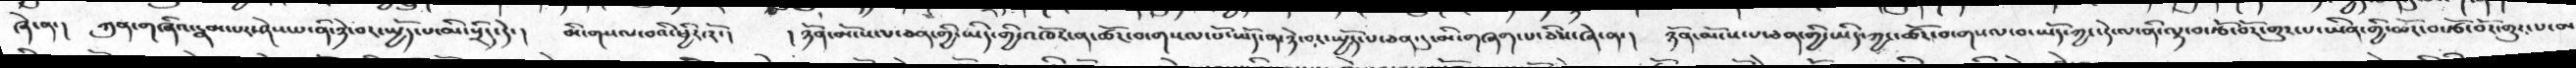ཞེ་ན་།  ཀུན་གཞིའ་རྣམ་པར་ཤེས་པ་ནི་ཉེ་བར་སྤྱོད་པ་མི་སྲིད་དེ་།  མི་གསལ་བའི་ཕྱིར་རོ་།   །ཉོན་མོངས་པ་ཅན་གྱི་ཡིད་གྱི་འཁོར་ན་ཚོར་བ་གསལ་པོ་ཡོད་ན་ཉེ་བར་སྤྱོད་པ་ཅན་དུ་མི་གཞག་པ་ཅིས་ཞེ་ན་།  ཉོན་མོངས་པ་ཅན་གྱི་ཡིད་ཀྱང་ཚོར་བ་གསལ་བ་ཡོད་ཀྱང་དེ་ལ་ལྟ་བ་རྩོ་བོར་གྱུར་པ་ཡིན་གྱི་ཚོར་བ་རྩོ་བོར་གྱུར་པ་མ
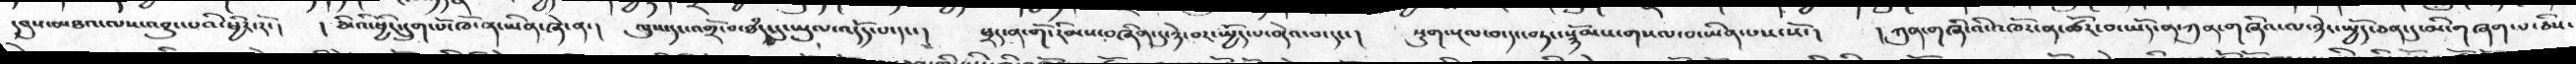དབུས་མཐའ་ལས་འབྱུང་པའི་ཕྱིར་རོ་།   །ཅི་འི་ཕྱིར་དྲུག་པོ་ཁོ་ན་ཡིན་ཞེ་ན་།   ལུས་དང་འགྲོ་བ་ཐཾད་དུ་ཡུལ་འདོད་པ་དང་།  ཕྲད་ན་གོ་རིམས་བཞིན་དུ་ཉེ་བར་སྤྱོད་པ་བདེའ་པ་དང་།   སྡུག་སྔལ་བ་དང་བཏང་སྙོམས་གསལ་བ་ཡིན་པས་སོ་།   །ཀུན་གཞི་འི་འཁོར་ན་ཚོར་བ་ཡོད་ན་ཀུན་གཞིའ་ལ་ཉེར་སྤྱོད་ཅན་དུ་མི་གཞག་པ་ཅིས་
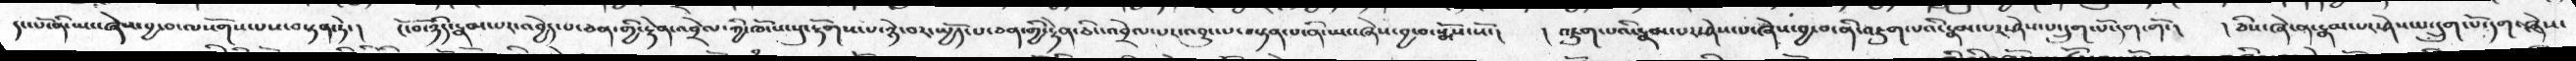དང་པོ་ནི་ཡང་ཞེས་བྱ་བ་ལསོགས་པས་བསྟན་ཏེ་།   ངོ་བོ་ཉིད་རྣམ་པར་འབྱེད་པ་ཅན་གྱི་རྟེན་འབྲེལ་ཀྱི་ཁོངས་སུ་རྟོགས་པ་ཉེ་བར་སྤྱོད་པ་ཅན་གྱི་རྟེན་ཅིང་འབྲེལ་པར་འབྱུང་པ་བསྟན་པ་ནི་ཡང་ཞེས་བྱ་བ་སྨོས་སོ་།   །འཇུག་པའི་རྣམ་པར་ཤེས་པ་ཞེས་བྱ་བ་ནི་འཇུག་པའི་རྣམ་པར་ཤེས་པ་དྲུག་པོ་དག་གོ་།   །ཅིས་ཞེ་ན་རྣམ་པར་ཤེས་པ་དྲུག་པོ་དག་ཞེས་
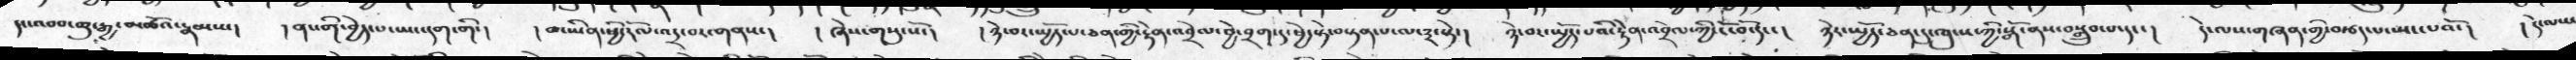དང་འབབ་ཆུ་རྒྱ་མཚོའ་རྣམས་།   །ནང་གི་བྱེད་པ་ཡང་དག་གི་།   །ཁ་ཡིན་ཕྱི་རོལ་འདྲ་བར་གནས་།  ། ཞེས་གསུངསོ་།   །ཉེ་བར་སྤྱོད་པ་ཅན་གྱི་རྟེན་འབྲེལ་བྱེ་བྲག་དུ་ཕྱེ་སྟེ་བསྟན་པ་ལ་༣་སྟེ་།  ཉེ་བར་སྤྱོད་པའི་རྟེན་འབྲེལ་ཀྱི་ངོ་བོ་དང་།  ཉེར་སྤྱོད་ཅན་དུ་ཁུངས་ཀྱི་སྒོ་ནས་བསྒྲུབ་པ་དང་།  དེ་ལས་གཞན་གྱི་བརྩད་པ་སྤང་པའོ་།  ། དེ་ལས་
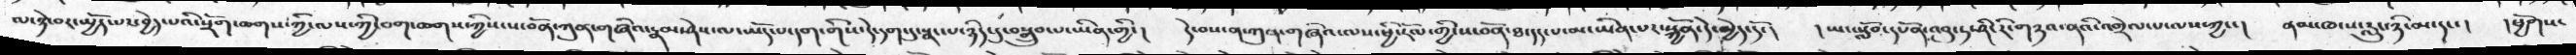ལ་ཉེ་བར་སྤྱོད་པར་བྱེད་པའི་སྲོག་ཆགས་ཀྱི་ལས་ཀྱི་བག་ཆགས་ཀྱིས་ས་བོན་ཀུན་གཞིའ་རྣམ་ཤེས་ལ་ཡོད་པ་དག་གིས་དེ་དག་དུ་སྣང་པ་ཉིད་དུ་བསྒྲུབ་པ་ཡིན་གྱི་།  དེ་བས་ན་ཀུན་གཞིའ་ལས་ཕྱི་རོལ་གྱི་ས་བོན་ཐ་དད་པ་མ་ཡིན་པར་སྐྱོན་དེ་མྱེད་དོ་།  །ཡང་སློབ་དཔོན་འབུ་ཏ་ཤི་རི་གཉའ་ནའི་འགྲེལ་པ་ལས་ཀྱང་།  ནམ་ཁ་ས་རླུང་ཉི་མ་དང་།   །ཕྱོགས་
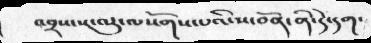འབྲས་ས་ལུ་ལསོགས་པའི་ས་བོན་ནི་དེ་དག་
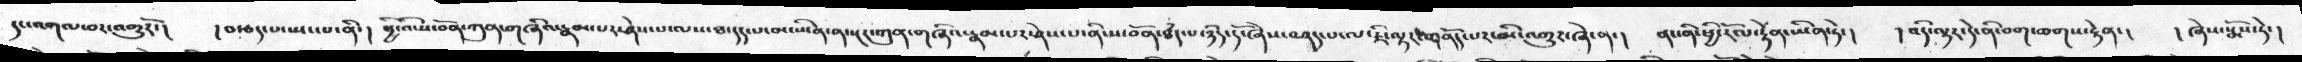དང་འགལ་བར་འགྱུརོ་།   །བརྩད་པ་སྤང་པ་ནི་།  ཕྱི་འི་ས་བོན་ཀུན་གཞིའ་རྣམ་པར་ཤེས་པ་ལས་ཐ་དད་པ་མ་ཡིན་ན་སྔར་ཀུན་གཞིའ་རྣམ་པར་ཤེས་པ་ནི་ས་བོན་ཐདཾ་པ་ཉིད་དོ་ཞེས་བཤད་པ་ལ་ཇི་ལྟར་གནོད་པར་མི་འགྱུར་ཞེ་ན་།  ནང་གི་ཕྱི་རོལ་རྟེན་ཡིན་ཏེ་།  །འདི་ལྟར་དེ་ནི་བག་ཆགས་རྟེན་།   །ཞེས་སྨོས་ཏེ་།
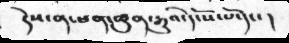དེས་ན་ཕན་ཚུན་རྒྱུའི་དངོས་པོ་དང་།
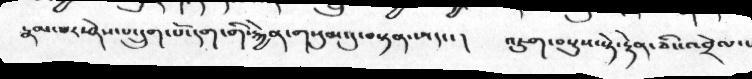རྣམ་པར་ཤེས་པ་དྲུག་པོ་དག་གི་རྐྱེན་གསུམ་དུ་བསྟན་པ་དང་།   འཇུག་བསྡུས་སྟེ་རྟེན་ཅིང་འབྲེལ་པ
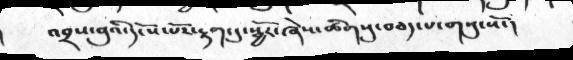འབྲས་བུའི་དངོས་པོར་རྟག་དུ་སྦྱོར་ཞེས་ཚིགསུ་བཅད་པ་གསུངསོ་།
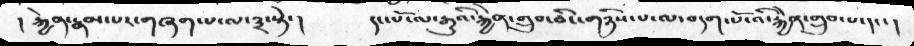། རྐྱེན་རྣམ་པར་གཞག་པ་ལ་༣་སྟེ་།   དང་པོ་ལ་རྒྱུའི་རྐྱེན་གྲུབ་ཅིང་གཉིས་པ་ལ་བདག་པོ་འི་རྐྱེན་གྲུབ་པ་དང་།
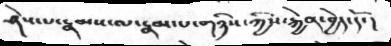ཤེས་པ་རྣམས་ལ་རྣམ་པ་གཉིས་ཀྱིས་རྐྱེན་བྱེད་དོ་།
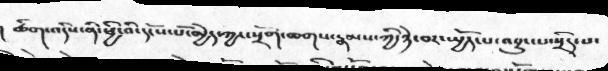། ཚིག་འདིས་ནི་ཕྱི་འི་དངོས་པོ་མྱེད་ཀྱང་སྲོག་ཆགས་རྣམས་ཀྱི་ཉེ་བར་སྤྱོད་པ་འབྱུང་པ་སྲིད་པ་
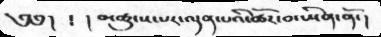༄༅།  ༴  ། མཚུངས་པར་ལྡན་པའི་ཚོར་བ་ཡིན་ནོ་།
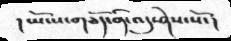།ཡོངས་གཅོད་ནི་འདུ་ཤེས་སོ་།
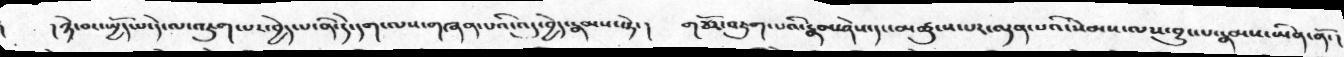།   །ཉེ་བར་སྤྱོད་པ་དེ་ལ་འཇུག་པར་བྱེད་པ་ནི་དེ་དག་ལས་གཞན་པའི་འདུ་བྱེད་རྣམས་སྟེ་།  གཙོར་འཇུག་པའི་རྣམ་ཤེས་དང་མཚུངས་པར་ལྡན་པའི་སེམས་ལས་བྱུང་པ་རྣམས་ཡིན་ནོ་།
